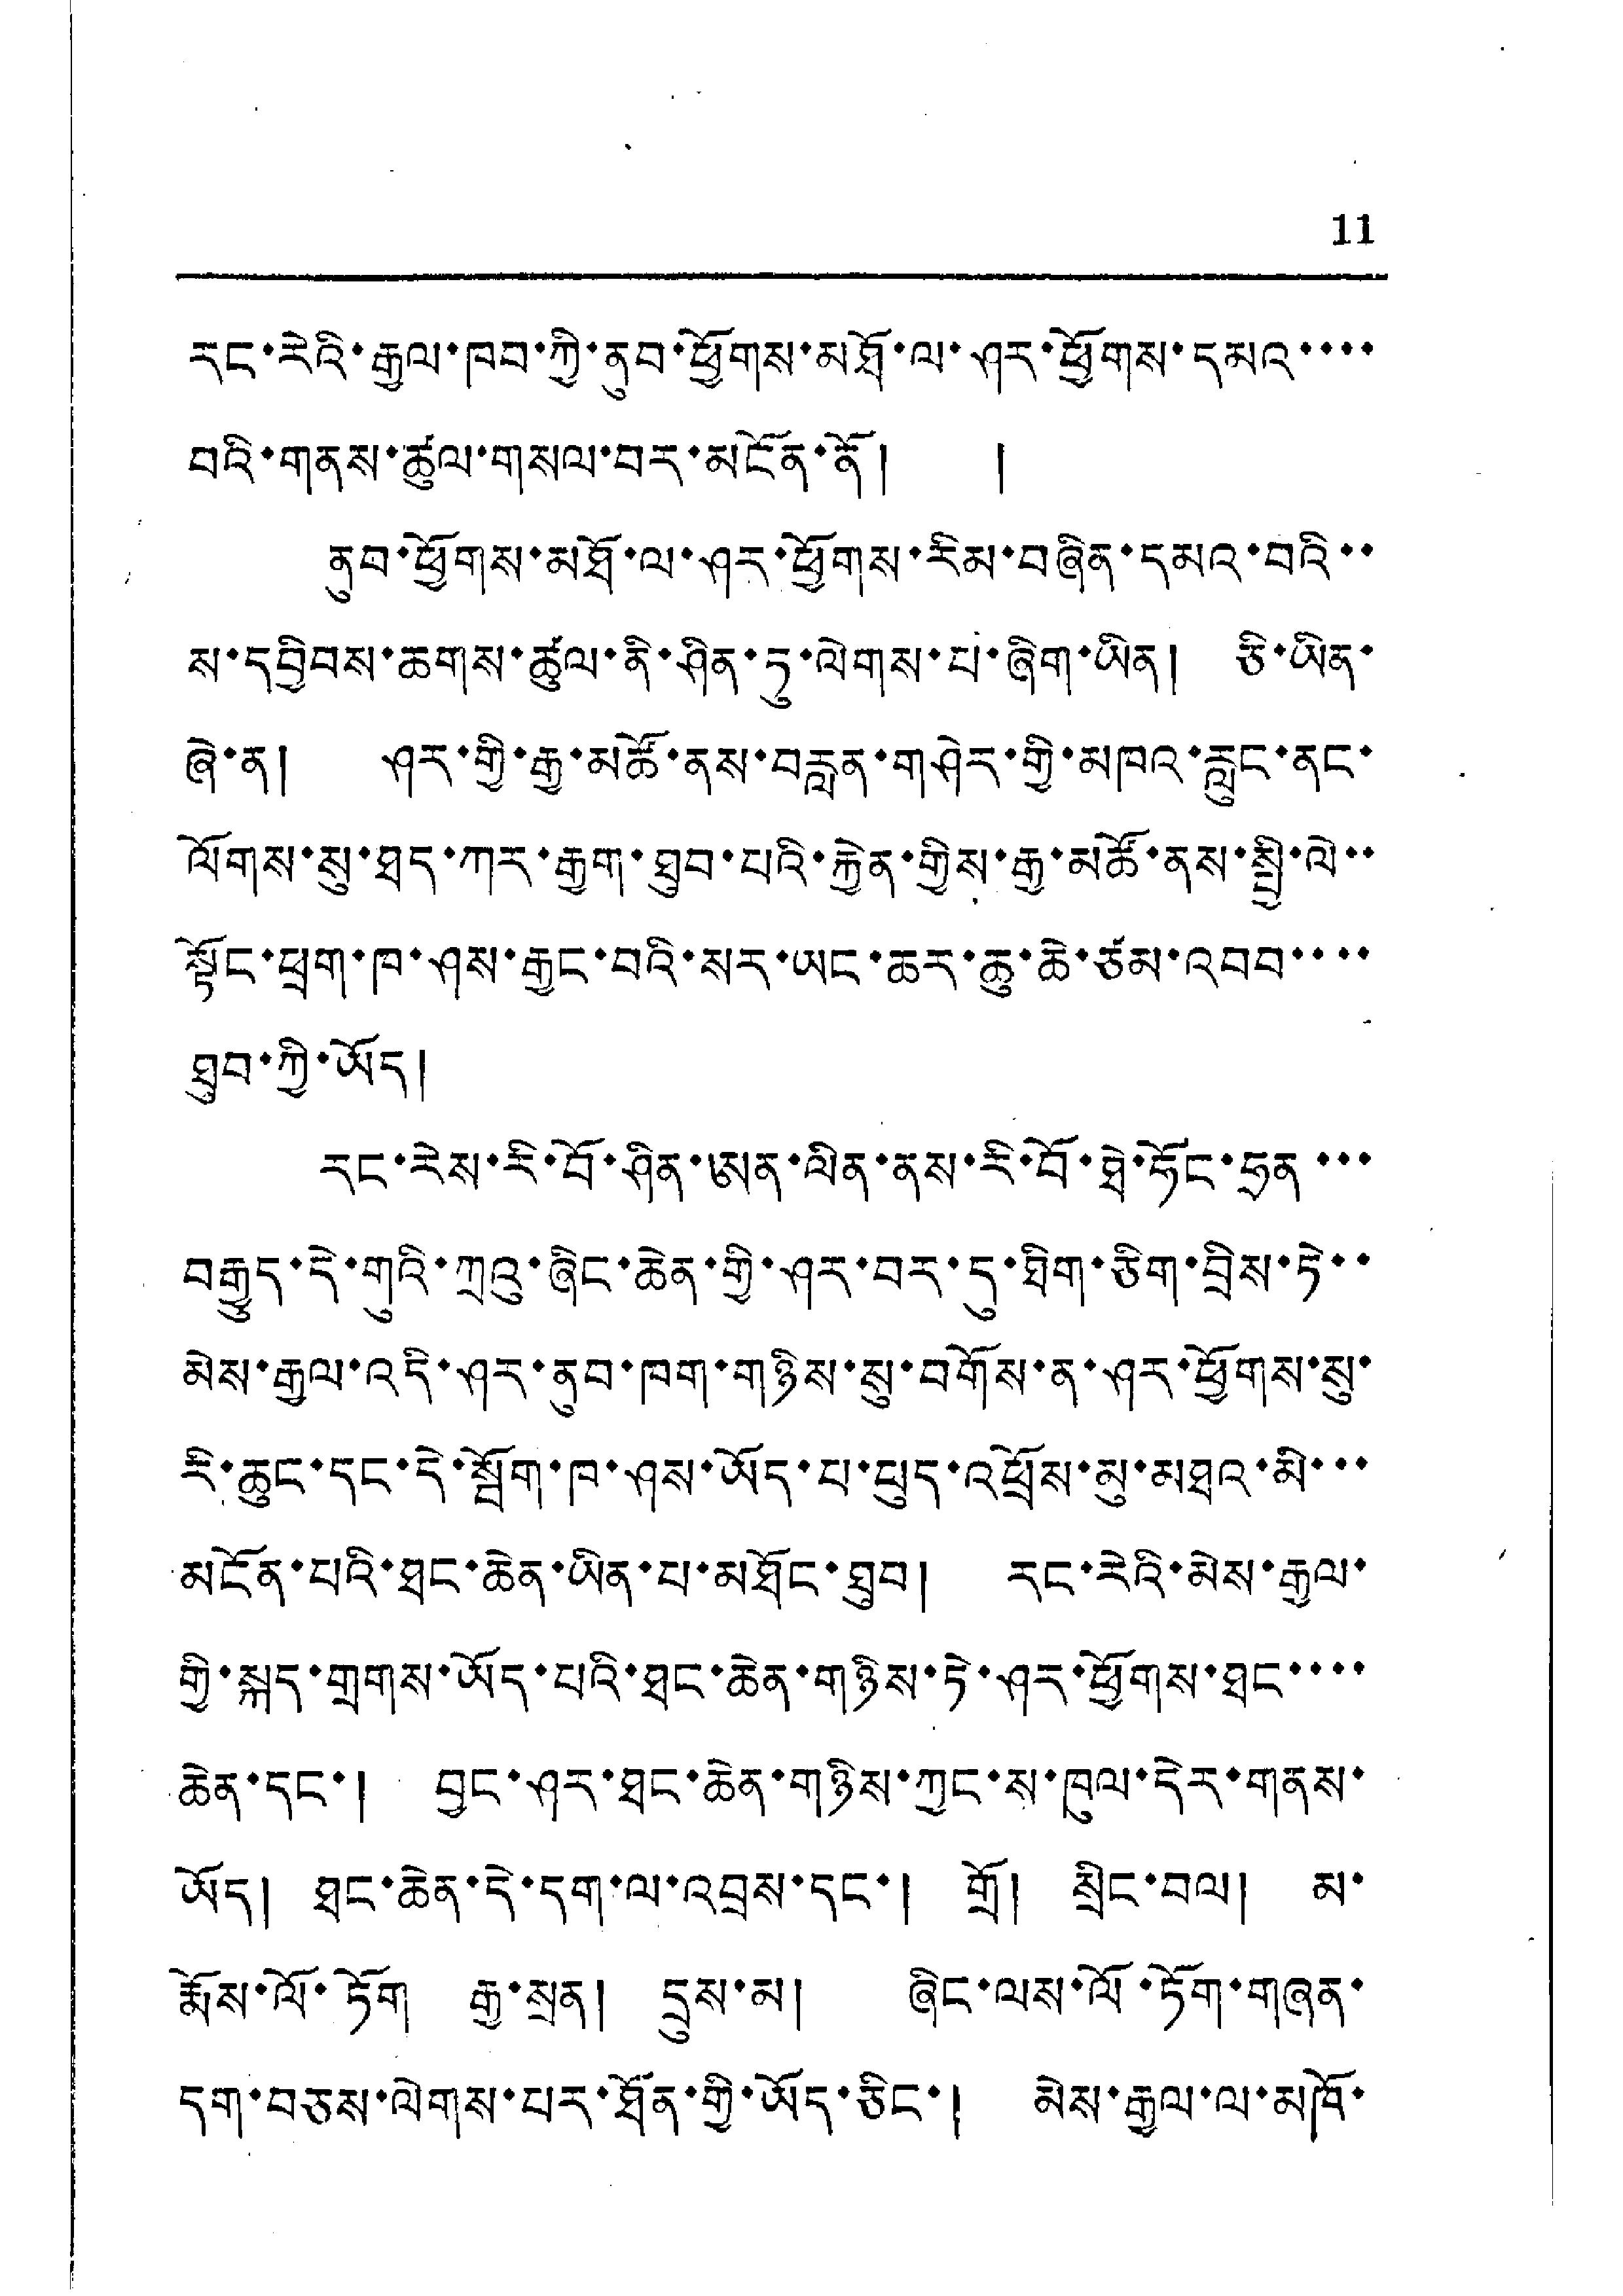11
རང་རེའི་རྒྱལ་ཁབ་ཀྱི་ནུབ་ཕྱོགས་མཐོ་ལ་ཤར་ཕྱོགས་དམའ་་་་
བའི་གནས་ཚུལ་གསལ་བར་མངོན་ནོ། །
ནུབ་ཕྱོགས་མཐོ་ལ་ཤར་ཕྱོགས་རིམ་བཞིན་དམའ་བའི་་
ས་དབྱིབས་ཆགས་ཚུལ་ནི་ཤིན་ཏུ་ལེགས་པ་ཞིག་ཡིན། ཅི་ཡིན་
ཞེ་ན། ཤར་གྱི་རྒྱ་མཚོ་ནས་བརླན་གཤེར་གྱི་མཁའ་རླུང་ནང་
ལོགས་སུ་ཐད་ཀར་རྒྱག་ཐུབ་པའི་རྐྱེན་གྱིས་རྒྱ་མཚོ་ནས་སྤྱི་ལེ་་
སྟོང་ཕྲག་ཁ་ཤས་རྒྱང་བའི་སར་ཡང་ཆར་ཆུ་ཆེ་ཅམ་འབབ་་་་
ཐུབ་ཀྱི་ཡོད།
རང་རེས་རི་བོ་ཤིན་ཨན་ལིན་ནས་རི་བོ་ཐེ་ཧོང་ཧྲན་་་
བརྒྱུད་དེ་གའི་ཀྲའུ་ཞིང་ཆེན་གྱི་ཤར་བར་དུ་ཐིག་ཅིག་བྲིས་ཏེ་་
མེས་རྒྱལ་འདི་ཤར་ནུབ་ཁག་གཉིས་སུ་བགོས་ན་ཤར་ཕྱོགས་སུ་
རི་ཆུང་དང་དེ་སྦོག་ཁ་ཤས་ཡོད་པ་ཕུད་འཕྲོས་མུ་མཐའ་མི་་་
མངོན་པའི་ཐང་ཆེན་ཡིན་པ་མཐོང་ཐུབ། རང་རེའི་མེས་རྒྱལ་
གྱི་སྐད་གྲགས་ཡོད་པའི་ཐང་ཆེན་གཉིས་ཏེ་ཤར་ཕྱོགས་ཐང་་་་
ཆེན་དང་། བྱང་ཤར་ཐང་ཆེན་གཉིས་ཀྱང་ས་ཁུལ་དེར་གནས་
ཡོད། ཐང་ཆེན་དེ་དག་ལ་འབྲས་དང་། གྲོ། སྲིང་བལ། མ་
རྨོས་ལོ་ཏོག རྒྱ་སྲན། དྲུས་མ། ཞིང་ལས་ལོ་ཏོག་གཞན་
དག་བཅས་ལེགས་པར་ཐོན་གྱི་ཡོད་ཅིང་། མེས་རྒྱལ་ལ་མཁོ་
